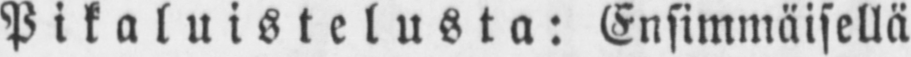Pikaluistelusta: Ensimmäisellä
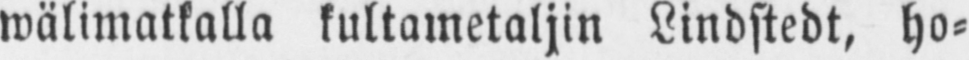wälimatkalla kultametaljin Lindstedt, ho-
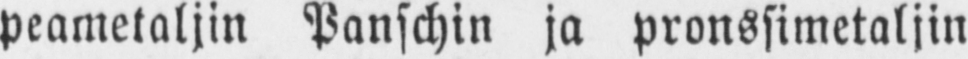peametaljin Panschin ja pronssimetaljin
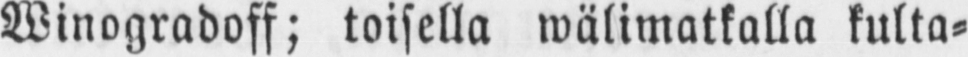Winogradoff; toisella wälimatkalla kulta-
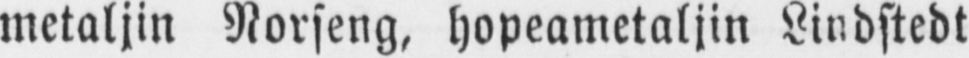metaljin Norseng, hopeametaljin Lindstedt
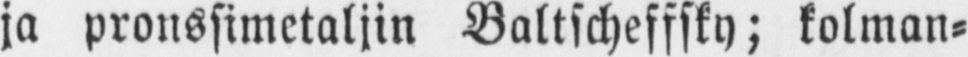ja pronssimetaljin Baltscheffsky; kolman-
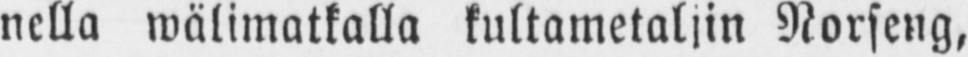nella wälimatkalla kultametaljin Norseng,
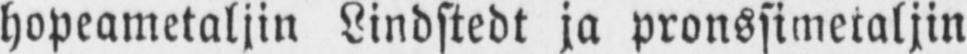hopeametaljin Lindstedt ja pronssimetaljin
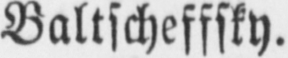Baltscheffsky.
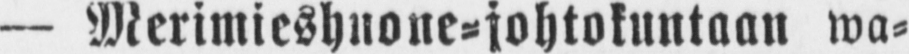— Merimieshuone-johtokuntaan wa-
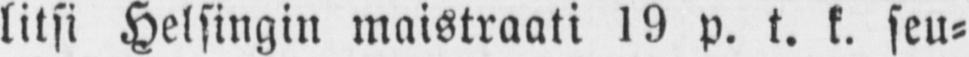litsi Helsingin maistraati 19 p. t. k. seu-
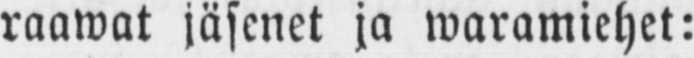raawat jäsenet ja waramiehet:
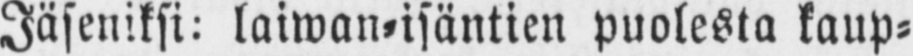Jäseniksi: laiwan-isäntien puolesta kaup-
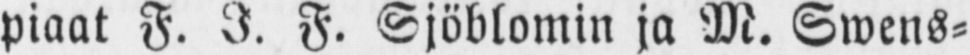piaat F. I. F. Sjöblomin ja M. Swens-
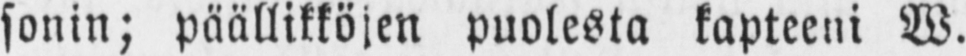sonin; päällikköjen puolesta kapteeni W.
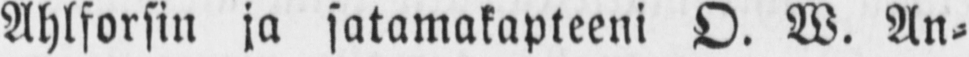Ahlforsin ja satamakapteeni O. W. An-
